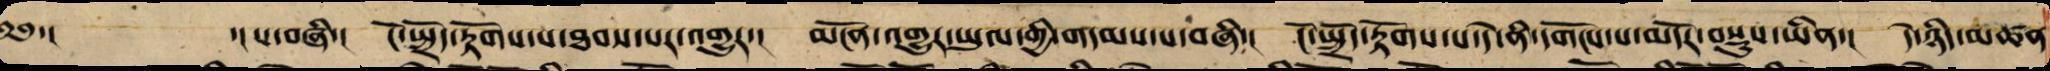༄༅་།  ་།ས་བཞི་། ངོ་སྤྲོད་རྟོགས་པ་ཐབས་པར་འགྱུར་། མངོན་འགྱུར་ཡུལ་གྱི་གདམས་པ་བཞི་། ངོ་སྤྲོད་རྟོགས་པ་དེ་ནི་དགོངས་པ་མདོར་བསྡུས་ཡིན་། དེ་ཡི་མཚན
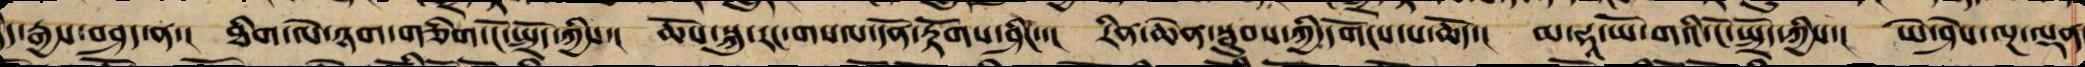ཉིད་རྒྱས་བཤད་ན་། ཐིག་ལེ་ཉག་གཅིག་ངོ་སྤྲོད་ཀྱིས་། ཆོས་སྐུ་རང་གསལ་དོན་རྟོགས་ཤིང་་། རིན་ཆེན་སྦུབས་ཀྱི་དགོངས་པ་ཆོད་། མ་ཧཱ་ཡོ་གའི་ངོ་སྤྲོད་ཀྱིས་། ཡེ་ཤེས་ལྔ་ལྡན
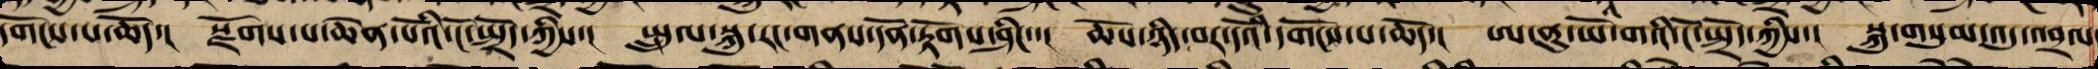དགོངས་པ་ཆོད་། སྫོགས་པ་ཆེན་པོའི་ངོ་སྤྲོད་ཀྱིས་། སྤྲུལ་སྐུ་རང་གནས་དོན་རྟོགས་ཤིང་་། ཆོས་ཉིད་བར་དོའི་དགོངས་པ་ཆོད་། ཨ་ནུ་ཡོ་གའི་ངོ་སྤྲོད་ཀྱིས་། སྐུ་གསུམ་འདུ་འབྲལ་
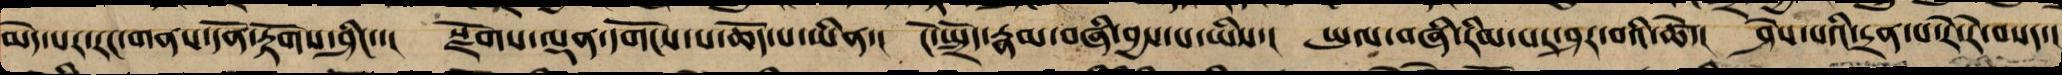མེད་པར་རང་གནས་དོན་རྟོགས་ཤིང་་། སྫོགས་ལྡན་དགོངས་པ་ཆོད་པ་ཡིན་། ངོ་སྤྲོད་རྣམ་བཞི་བྱས་པ་ཡིས་། ཡུལ་བཞི་རིམ་པར་ཤར་བའི་ཚེ་། ཤེས་པའི་དྲན་པ་རེ་རེ་བསད་།
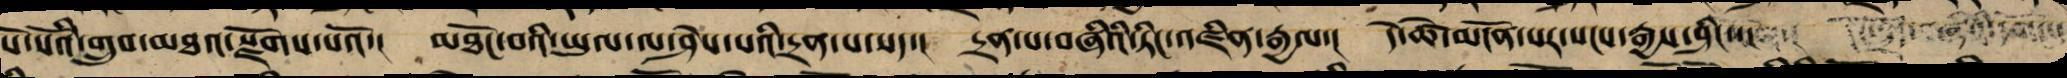སོ་སོའི་གྲུབ་མཐའ་སྫོགས་པའོ་། མཐོང་བའི་ཡུལ་ལ་ཤེས་པའི་དྲན་པ་སད་། དྲན་པ་བཞིའི་ཏིང་འཛིན་རྒྱལ་། དེ་ཚེ་མངོན་པར་སངས་རྒྱས་ཤིང་།
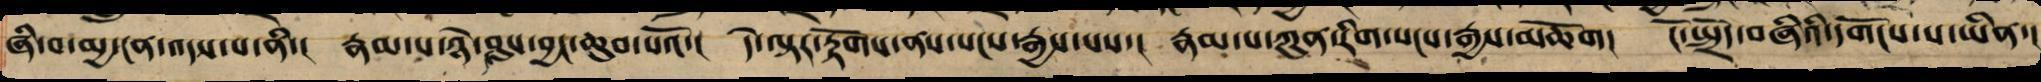ཞི་བ་མྱ་ངན་འདས་པ་ནི་། རྣམ་པ་ཉི་ཤུས་བྱང་ཆུབ་པའི།  དེ་ལྟར་རྟོགས་ནས་སངས་རྒྱས་པས་། རྣམ་པ་ཀུན་རིག་སངས་རྒྱས་མཆོག་ ངོ་སྤྲོད་བཞིའི་དགོངས་པ་ཡིན་།
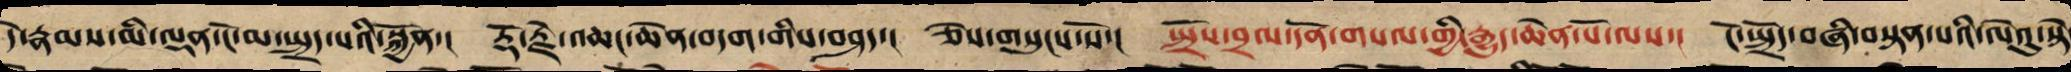དེ་རྣམས་མི་ལྡན་ངོ་མ་སྤྲད་པའི་སྐྱོན་། རྡོ་རྗེ་འཆང་ཆེན་བདག་གིས་བཤད་། ཅེས་གསུངས་སོ་། སྤྲོས་བྲལ་དོན་གསལ་གྱི་རྒྱུད་ཆེན་པོ་ལས་། ངོ་སྤྲོད་བཞི་བསྟན་པའི་ལེའུ་སྟེ་
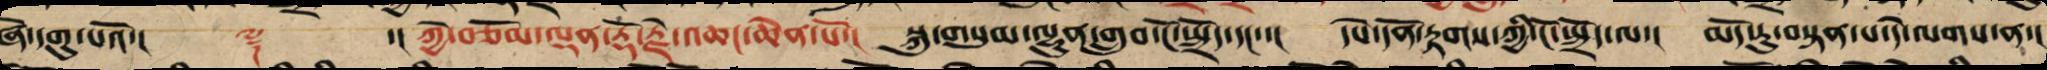ཞེ་དགུ་པའོ་།། ༈ ་། ཀྱེ་ཀྱེ་བཅོམ་ལྡན་རྡོ་རྗེ་འཆང་ཆེན་པོ་། སྐུ་གསུམ་ལྷུན་གྲུབ་ངོ་སྤྲོད་དང་་། དཔེ་དོན་རྟགས་ཀྱི་ངོ་སྤྲོད་ལ་། མདོ་རུ་བསྟན་པ་དེ་ལགས་ན་།
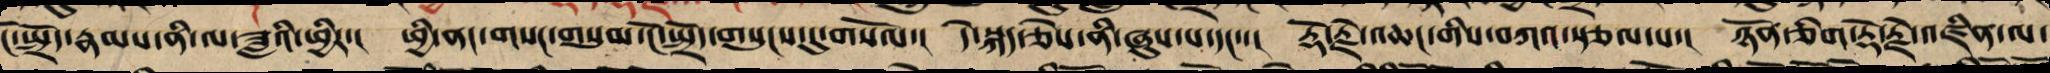ངོ་སྤྲོད་རྣམས་ནི་ལ་བཟླའི་ཕྱིར་། ཕྱི་ནང་གསང་གསུམ་ངོ་སྤྲོད་གསུངས་དུ་གསོལ་། དེ་སྐད་ཅེས་ནི་ཞུས་པ་དང་་། རྡོ་རྗེ་འཆང་གིས་བཀའ་སྩལ་པ་། ཉོན་ཅིག་རྡོ་རྗེ་འཛིན་ལ་
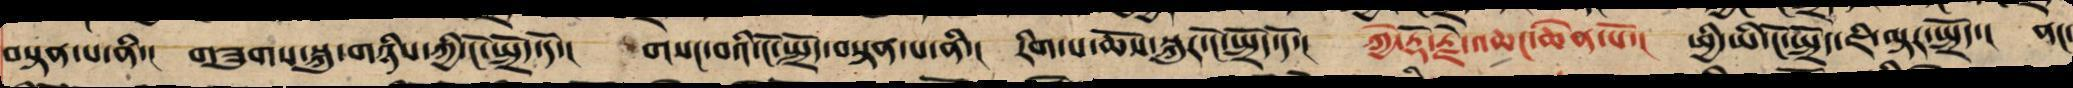བསྟན་པ་ནི་། གཟུགས་སྐུ་གཉིས་ཀྱི་ངོ་སྤྲོད་དོ་། གསང་བའི་ངོ་སྤྲོད་བསྟན་པ་ནི་། རིག་པ་ཆོས་སྐུར་ངོ་སྤྲོད་དོ་། ཀྱེ་རྡོ་རྗེ་འཆང་ཆེན་པོ་། ཕྱི་ཡི་ངོ་སྤྲོད་ཇི་ལྟར་སྤྲོད་། ནང་
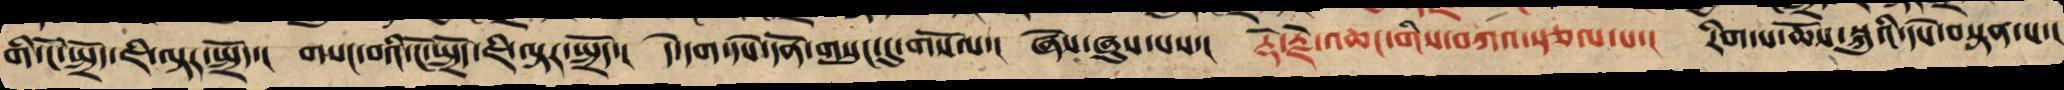གི་ངོ་སྤྲོད་ཇི་ལྟར་སྤྲོད་། གསང་བའི་ངོ་སྤྲོད་ཇི་ལྟར་སྤྲོད་། དེ་དག་དཔེ་དོན་གསུང་དུ་གསོལ་། ཞེས་ཞུས་པས་། རྡོ་རྗེ་འཆང་གིས་བཀའ་སྩལ་པ་། རིག་པ་ཆོས་སྐུའི་དཔེ་བསྟན་པ་།
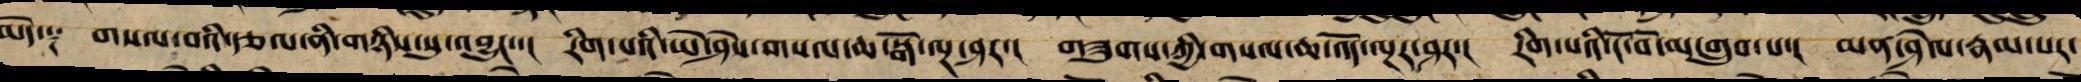མེད༑ གསལ་བའི་རྩལ་ནི་གཉིས་སུ་འབྱུང་་། རིག་པའི་གསལ་ཆ་སྒོ་ལྔར་ཤར་། གཟུགས་ཀྱི་གསལ་ཆ་འོད་ལྔར་ཤར་། རིག་པའི་ངོ་བོ་མ་གྲུབ་པ་། མན་ཤེལ་རྣམ་པར་
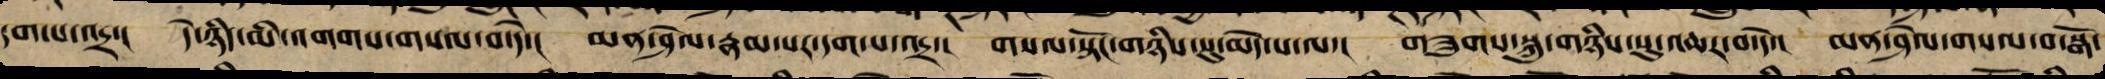དག་པ་འདྲ་། དེ་ཉིད་མི་འགག་གསལ་བ་དེ་། མན་ཤེལ་རྣམ་པར་དག་པ་འདྲ་། གསལ་སྟོང་གཉིས་སུ་མེད་པ་ལ་། གཟུགས་སྐུ་གཉིས་སུ་འཆར་བ་དེ་། མན་ཤེལ་གསལ་བ་སྒོ་
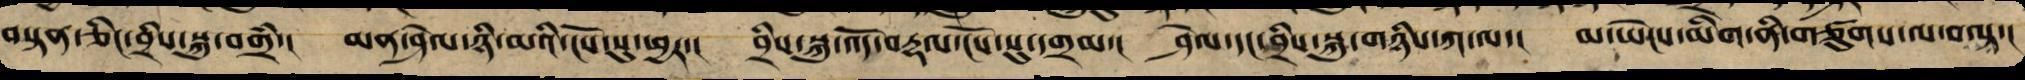བསྟན་ཅིང་བྲིས་སྐུ་བགྲཾ། མན་ཤེལ་ཉི་མའི་ངོས་སུ་ཕྱར་། བྲིས་སྐུ་འོད་བརྡལ་དངོས་སུ་དགྲམ་། ཤེལ་དང་བྲིས་སྐུ་གཉིས་ཀ་ལ་། མ་ཡེངས་མིག་ནི་གཙུགས་ལ་བལྟ་།
